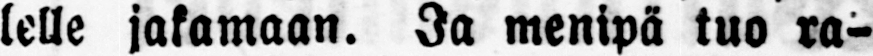lelle jakamaan. Ja menipä tuo ra-
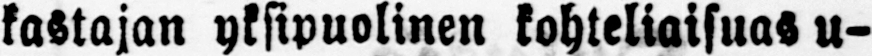kastajan yksipuolinen kohteliaisuas u-
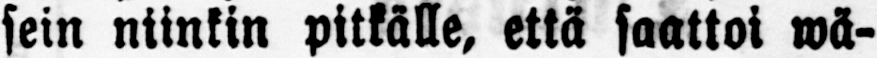sein niinkin pitkälle, että saattoi wä-
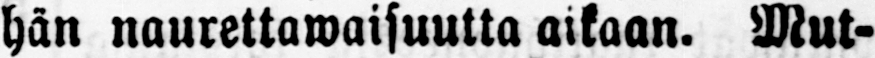hän naurettawaisuutta aikaan. Mut-
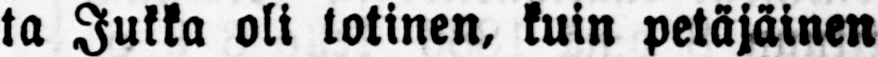ta Jukka oli totinen, kuin petäjäinen
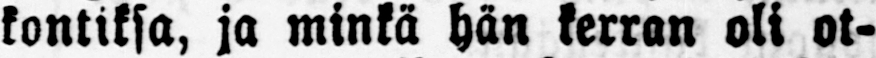kontiksa, ja minkä hän kerran oli ot-
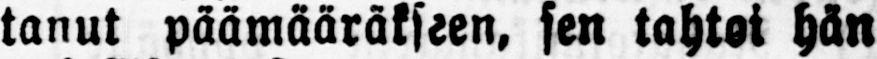tanut päämääräkseen, sen tahtoi hän
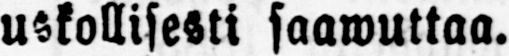uskollisesti saawuttaa.
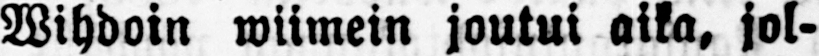Wihdoin wiimein joutui aika, jol-
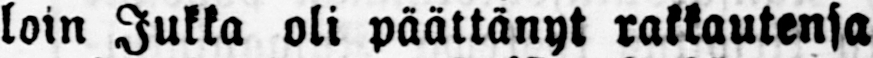loin Jukka oli päättänyt rakkautensa
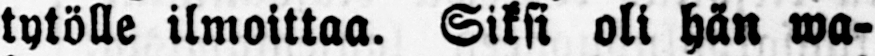tytölle ilmoittaa. Siksi oli hän wa-
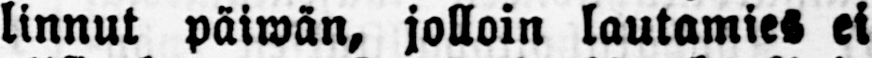linnut päiwän, jolloin lautamies ei
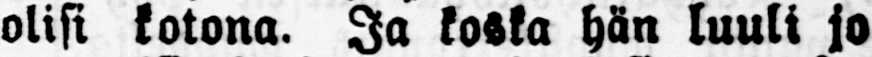olisi kotona. Ja koska hän luuli jo
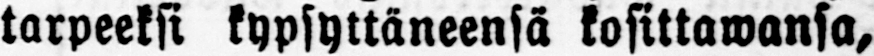tarpeeksi kypsyttäneensä kosittawansa,
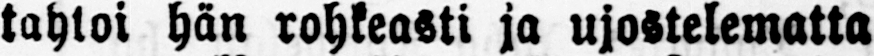tahtoi hän rohkeasti ja ujostelematta
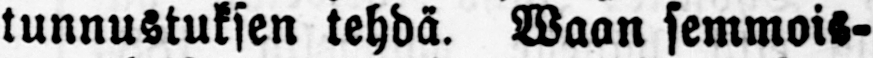tunnustuksen tehdä. Waan semmois-
